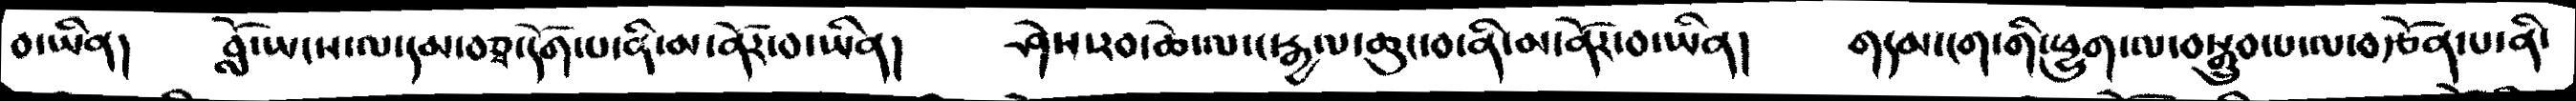བ་ཡིན།  བློ་ཡངས་ལ་དམ་བཅྭ་དོག་པ་ནི་མ་ནོར་བ་ཡིན།  ཤེས་རབ་ཆེ་ལ་ང་རྒྱལ་ཆུང་བ་ནི་མ་ནོར་བ་ཡིན།  གདམ་ངག་གི་ཕྱུག་ལ་བསྒྲུབ་པ་ལ་བརྩོན་པ་ནི་
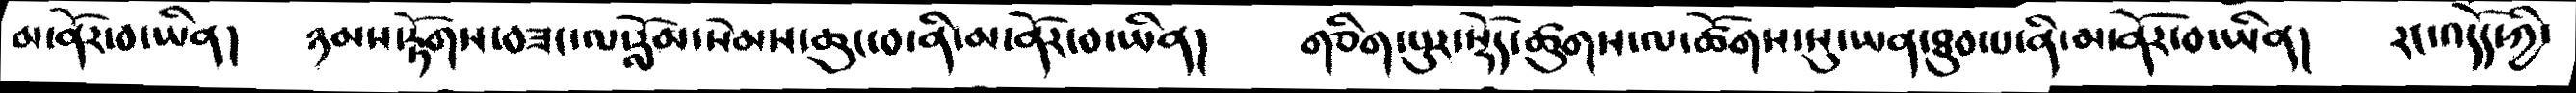མ་ནོར་བ་ཡིན།  ཉམས་རྟོགས་བཟང་ལ་རློམ་སེམས་ཆུང་བ་ནི་མ་ནོར་བ་ཡིན།  གཅིག་པུར་སྡེ་ཚུགས་ལ་ཚོགས་སུ་ཡན་ཐུབ་པ་ནི་མ་ནོར་བ་ཡིན།  རང་འདོད་ཀྱི་
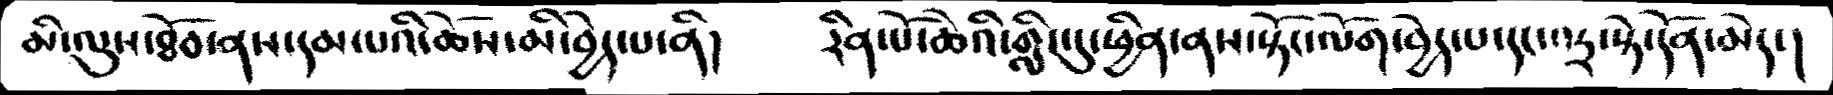མི་ལུས་ཐོབ་ནས་དམ་པའི་ཆོས་མི་བྱེད་པ་ནི།  རིན་པོ་ཆེའི་གླིང་དུ་ཕྱིན་ནས་སྟོང་ལོག་བྱེད་པ་དང་འདྲ་སྟེ་དོན་མེད་།
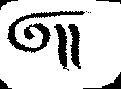༅།།
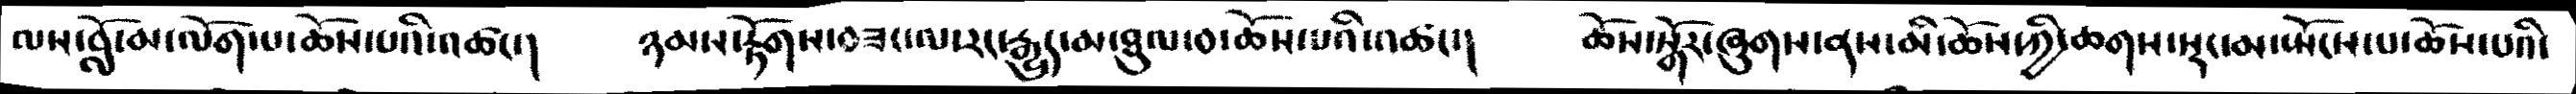ལས་བློ་མ་ལོག་པ་ཆོ་སཔའི་འཚང་།  ཉམས་རྟོགས་བཟང་ལ་རང་རྒྱུད་མ་ཐུལ་བ་ཆོས་པའི་འཚང་།  ཆོས་སྒོར་ཞུགས་ནས་མི་ཆོས་ཀྱི་ཆགས་སྡང་མ་སྤོངས་པ་ཆོས་པའི་
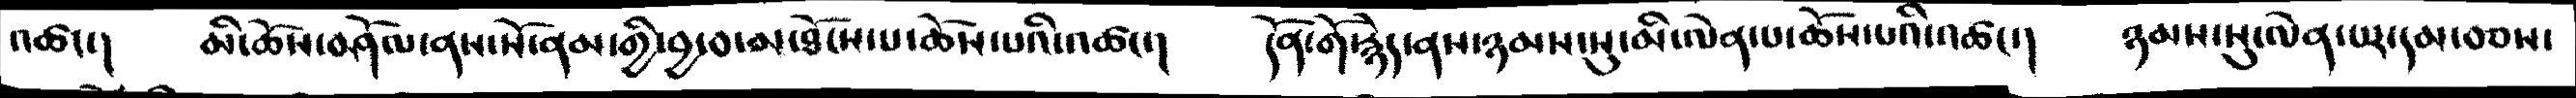འཚང་།  མི་ཆོས་བཤོལ་ནས་སོ་ནམ་གྱི་བྱ་བ་མ་ཐོངས་པ་ཆོས་པའི་འཚང་།  དོན་གོ་རྙེད་ནས་ཉམས་སུ་མི་ལེན་པ་ཆོས་པའི་འཚང་།   ཉམས་སུ་ལེན་པར་དམ་བཅས་
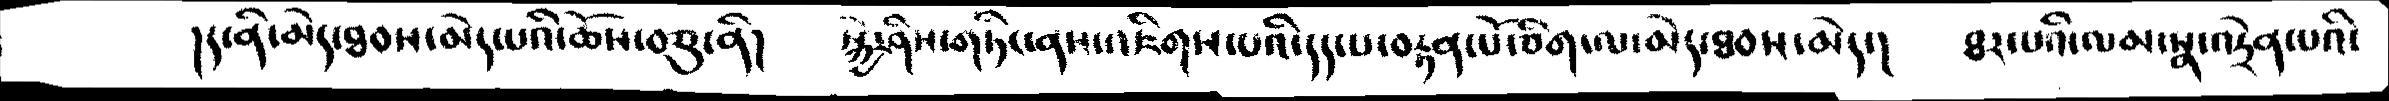།ད་ནི་མེད་ཐབས་མེད་པའི་ཆོས་བཅུ་ནི།  སྐྱེ་ཤིས་གཏིང་ནས་འཇིགས་པའི་དད་པ་བརྟན་པོ་ཅིག་ལ་མེད་ཐབས་མེད་།  ཐར་པའི་ལམ་སྣ་འདྲེན་པའི་
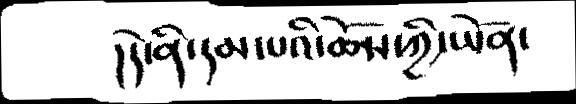།དེ་ནི་དམ་པའི་ཆོས་ཀྱི་ཡོན་
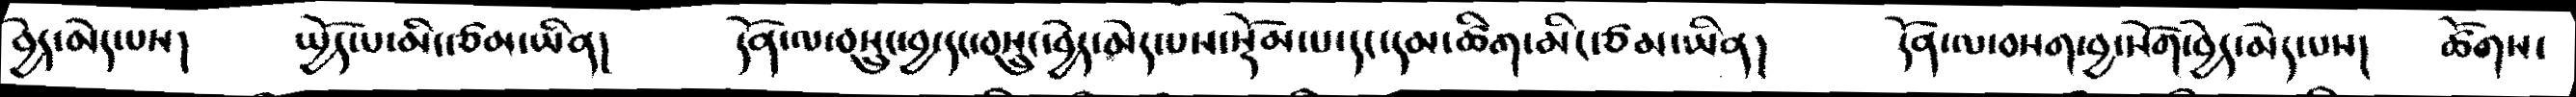བྱེད་མེད་པས།  སྤྱོད་པ་མིང་ཙམ་ཡིན།  དོན་ལ་བསྲུང་བྱ་དང་བསྲུང་བྱེད་མེད་པས་སྡོམ་པ་དང་དམ་ཚིག་མིང་ཙམ་ཡིན།  དོན་ལ་བསག་བྱ་སོག་བྱེད་མེད་པས།   ཚོགས་
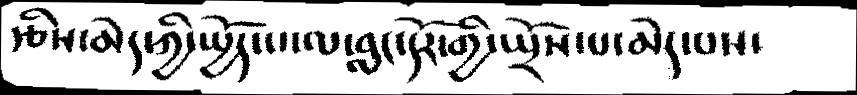རྩིས་མེད་ཀྱི་སྤྱོད་པ་ལ་བླང་དོར་གྱི་སྤྲོས་པ་མེད་པས་
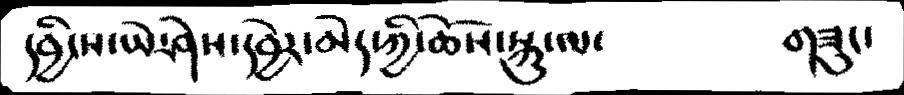དབྱིངས་ཡེ་ཤེས་དབྱེར་མེད་ཀྱི་ཆོས་སྐུ་ལ་             གཟུང་
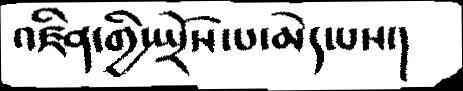འཛིན་གྱི་སྤྲོས་པ་མེད་པས་།
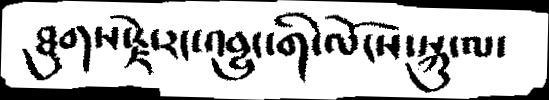ཐུགས་རྗེ་རང་འབྱུང་གི་ལོངས་སྐུ་ལ་
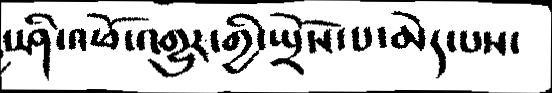སཤི་འཕོ་འགྱུར་གྱི་སྤྲོས་པ་མེད་པས་
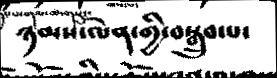ཉམས་ལེན་གྱི་བསྒྲུབ་པ་
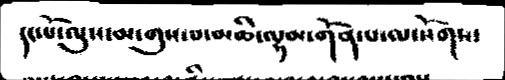དང་པོ་ལུས་མ་གུས་པ་མཆི་ལྷམ་གོན་པ་ལ་སོགས་
